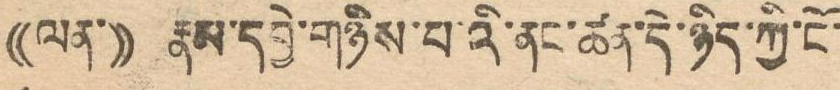((ལན་)) རྣམ་དབྱེ་གཉིས་པའི་ནང་ཚན་དེ་ཉིད་ཀྱི་ངོ་
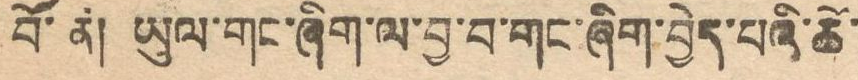བོ་ན། ཡུལ་གང་ཞིག་ལ་བྱ་བ་གང་ཞིག་བྱེད་པའི་ཚེ་
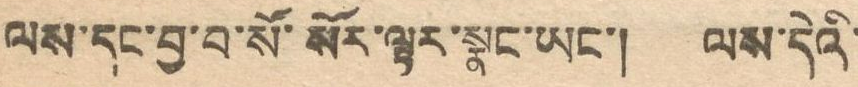ལས་དང་བྱ་བ་སོ་སོར་ལྟར་སྣང་ཡང་། ལས་དེའི་
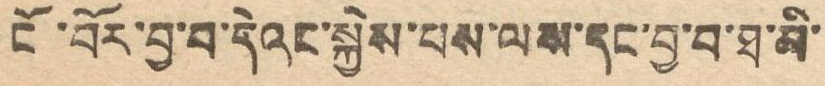ངོ་བོར་བྱ་བ་དེའང་སྐྱེས་པས་ལས་དང་བྱ་བ་ཐ་མི་
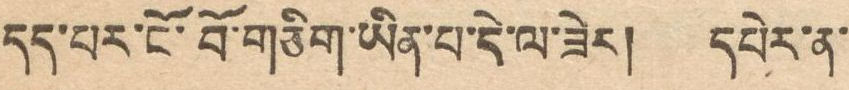དད་པར་ངོ་བོ་གཅིག་ཡིན་དེ་ལ་ཟེར། དཔེར་ན་
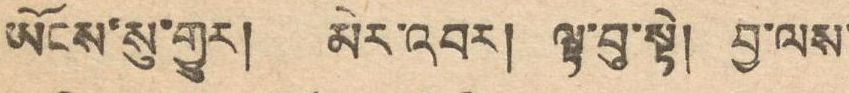ཡོངས་སུ་གྱུར། མེར་འབར། ལྟ་བུ་སྟེ། བྱ་ལས་
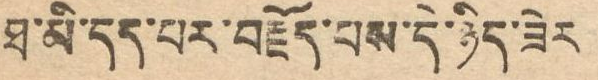ཐ་མི་དད་པར་བརྗོད་པས་དེ་ཉིད་ཟེར
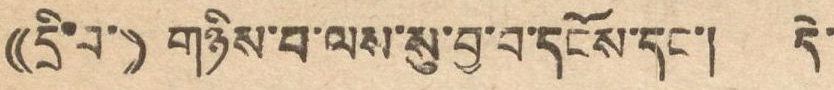((དྲི་བ་)) གཉིས་པ་ལས་སུ་བྱ་བ་དངོས་དང་། དེ་
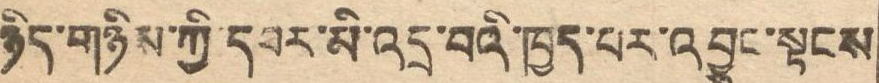ཉིད་གཉིས་ཀྱི་དབར་མི་འདྲ་བའི་ཁྱད་པར་འབྱུང་སྟངས
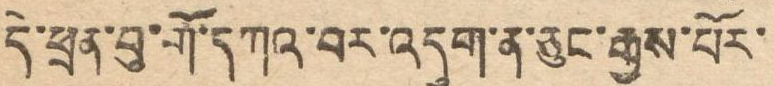དེ་ཕྲན་བུ་གོ་དཀའ་བར་འདུག་ན་ཅུང་རྒྱས་པོར་
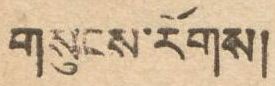གསུངས་རོགས།
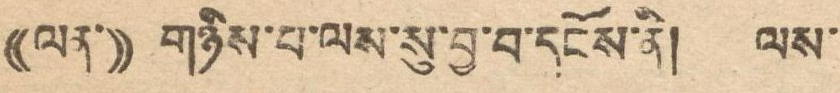((ལན་)) གཉིས་པ་ལས་སུ་བྱ་བ་དངོས་ནི། ལས་
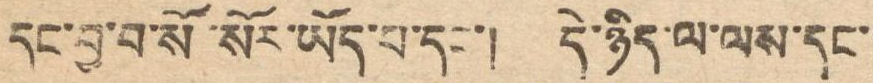དང་བྱ་བ་སོ་སོར་ཡོད་པ་དང་། དེ་ཉིད་ལ་ལས་དང་།
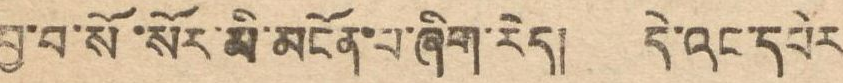བྱ་བ་སོ་སོར་མི་མངོན་པ་ཞིག་རེད། དེ་འང་དཔེར
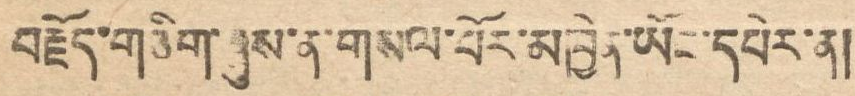བརྗོད་གཅིག་ཞུས་ན་གསལ་པོར་མཁྱེན་ཡོང་དཔེན་ན།
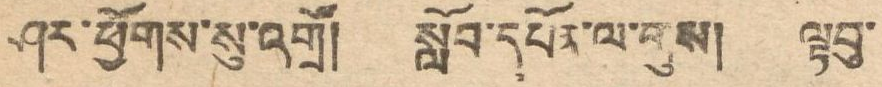ཤར་ཕྱོགས་སུ་འགྲོ། སློབ་དཔོན་ལ་གུས། ལྟབུ་
